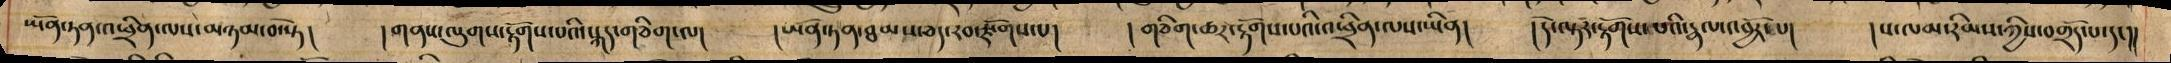ཡོན་ཏན་འཕྲིན་ལས་མཉམ་བ་སྟེ། །གནས་ལུགས་རྟོགས་པའི་སྐད་གཅིག་ལ། །ཡོན་ཏན་ཐམས་ཅད་རབ་སྫོགས་པ། །གཅིག་ཆར་རྟོགས་པའི་འཕྲིན་ལས་ཡིན། །དེ་ལྟར་རྟོགས་པའི་རྣལ་འབྱོར་པ། །ས་ལམ་རིམས་ཀྱིས་བགྲོད་པ་དང།།
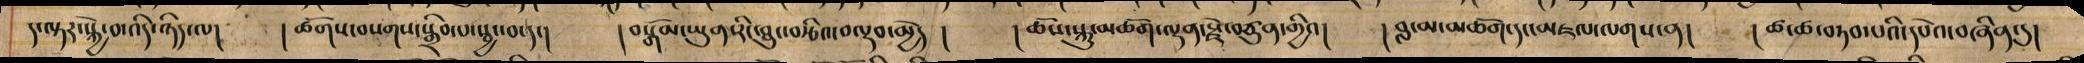ད་ལྟར་སྐྱེ་བ་འདི་ཉིད་ལ། །ཚོགས་བསགས་སྒྲིབ་པ་སྦྱང་བ་དང། །བསྒོམ་ཡུན་རིང་ཐུང་བརྩིའ་བལྡབ་མྱེ ། །ཆོས་སྐུ་མཆོག་ལྡན་རྗེ་བཙུན་གྱིའ། །བླ་མ་མཆོག་དང་མཇལ་ལགས་ན། །ཚ་ཚ་བཏབ་པའི་དཔེའ་བཞིན་དུ།
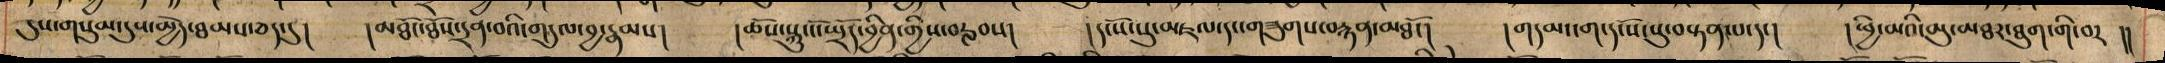དུས་གསུམ་དུས་མྱེད་ཐམས་ཅད་དུ། །མཐོང་ཐོས་དྲན་བའི་གདུལ་བྱ་རྣམས། །ཆོས་སྐུ་ངོ་སྤྲོད་བྱིན་གྱིས་བརླབས། །དངོས་སུ་མཇལ་དག་གཟུགས་བརྙན་མཐོང། །གདམ་ངག་དངོས་སུ་བསྟན་པ་དང། །ཕྱི་མའི་མུ་མཐར་ཐུག་གི་བར །།
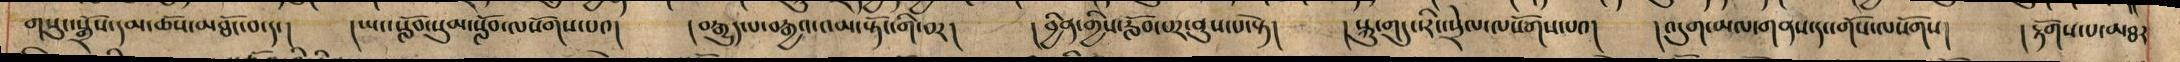གསུང་སྒྲོས་དམ་ཆོས་མཐོང་བ་དང། །ཡང་སློབ་སུམ་སློབ་ལསོགས་པའ། །བརྒྱུད་པ་བརྒྱའ་འམ་སྟོང་གི་བར། །བྱིན་གྱིས་རློབ་པར་ནུས་པ་སྟེ། །སྐུ་གདུང་རིང་སྲེལ་ལསོགས་པའ། །འདུག་མལ་གནས་དང་གོས་ལསོགས། །རྟོགས་པ་མཐར
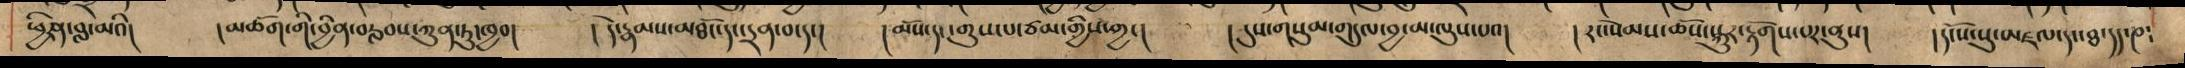ཕྱིན་བླ་མའི། །མཆོག་གི་བྱིན་བརླབས་ཀུན་ཏུ་ཁྱབ། ། དེ་རྣམས་མཐོང་དང་དྲན་བ་དང། །མོས་དང་གུས་པ་ཙམ་གྱིས་ཀྱང། ། དུས་གསུམ་གདུལ་བྱ་མ་ལུས་པའ། །རང་སེམས་ཆོས་སྐུར་རྟོགས་པར་ནུས། །དངོས་སུ་མཇལ་དང་ཐ་དད་ཎ༴
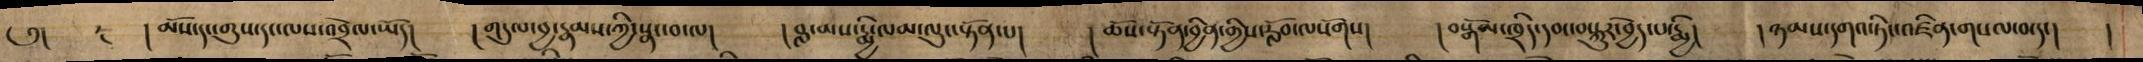༅། །མོས་དང་གུས་དང་ལས་འབྲེལ་ཡོད། །གདུལ་བྱ་རྣམས་ཀྱི་སྣང་བ་ལ། །བླ་མས་རྨྱི་ལམ་ལུང་སྟོན་པ། །ཆོས་སྟོན་བྱིན་གྱིས་རློབ་ལསོགས། །བསྒོམ་ཁྲིད་དབང་བསྐུར་བྱེད་པ་རྨྱི། །ཉམས་དགའ་ཏིང་འཛིན་གསལ་བ་དང། །
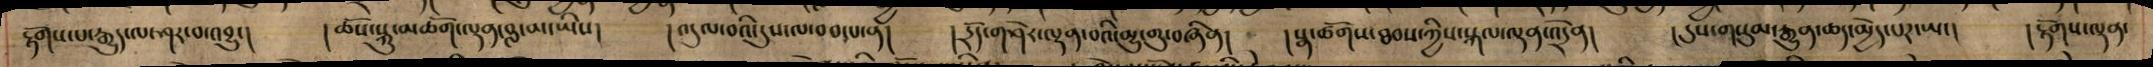རྟོགས་པ་རྒྱུད་ལ་ཤར་བ་འབྱུང། །ཆོས་སྐུ་མཆོག་ལྡན་བླ་མ་ཡིས། །འདུལ་བའི་དུས་ལ་བབ་པ་ན། །དྲོད་གཤེར་ལྡན་པའི་མྱུ་གུ་བཞིན། །སྣ་ཚོགས་ཐབས་ཀྱིས་སྐལ་ལྡན་འདྲེན། །དུས་གསུམ་རྒྱུན་ཆད་མྱེད་པར་ཡང། །རྟོགས་ལྡན་
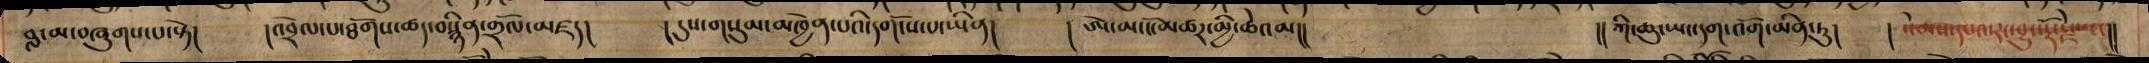བླ་མ་བཞུགས་པ་སྟེ། །འབྲེལ་པ་ཐོགས་ཚད་བསྙིན་གྲོལ་མཛད། །དུས་གསུམ་མཁྱེན་པའི་དགོངས་པ་ཡིན། ། ཨེ་མ་ངོ་མཚར་མྱི་ཆེའམ།། །།ཀི་ཆུ་ཡང་དག་འོག་མིན་ཏུ། །སེམས་དཔའ་རང་བྱུང་རྡོ་རྗེ་ཡང།།
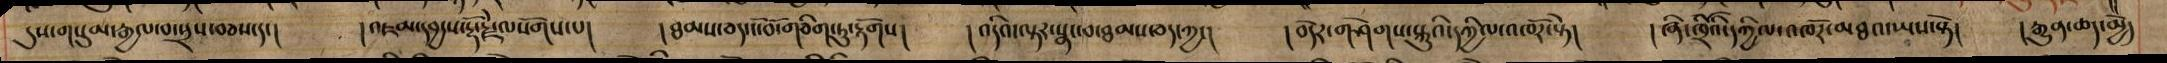དུས་གསུམ་རྒྱལ་བ་སྲས་བཅས་དང། །འཇམ་དབྱངས་རྡོ་རྗེ་ལསོགས་པ། །ཐམས་ཅད་ངོ་བོ་གཅིག་ཏུ་རྟོགས། །འདིའ་ལྟར་སྣང་བ་ཐམས་ཅད་ཀྱང། །བདེར་གཤེགས་སྐུའི་དཀྱིལ་འཁོར་སྟེ། །ཞི་ཁྲོའི་དཀྱིལ་འཁོར་མཐའ་ཡས་སྟེ། །རྒྱུན་ཆད་མྱེད
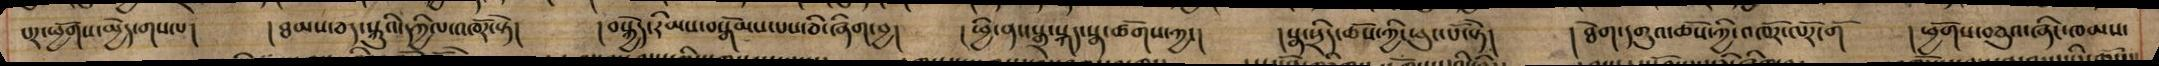པར་ཕྱོགས་མྱེད་གསལ། །ཐམས་ཅད་སྐུའི་དཀྱིལ་འཁོར་སྟེ། །བསྐྱེད་རིམས་བསྒོམས་པས་ཅི་ཞིག་བྱ། །ཕྱི་ནང་སྒྲ་སྐད་སྣ་ཚོགས་ཀྱང། །སྣང་སྲིད་ཆོས་ཀྱི་ཕུང་པོ་སྟེ། །ཐེག་དགུའ་ཆོས་ཀྱི་འཁོར་ལོར་གོ །ཕྱོགས་བཅུའ་ཞིང་ཁམས་
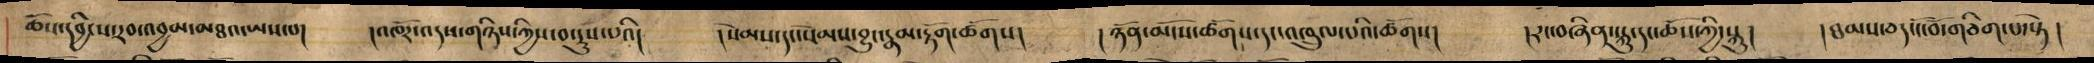ཆོས་དབྱིངས་རབ་འབྱམ་མཐའ་ཡས་པ། །འཁོར་འདས་གཉིས་ཀྱིས་བསྡུས་པའི། །སེམས་དང་སེམས་བྱུང་རྣམ་རྟོག་ཚོགས། །ཉོན་མོངས་ཚོགས་དང་འཁྲུལ་པའི་ཚོགས། །རང་བཞིན་སྐུ་དང་ཆོས་ཀྱི་སྐུ། །ཐམས་ཅད་ངོ་བོ་གཅིག་པ་སྟེ།
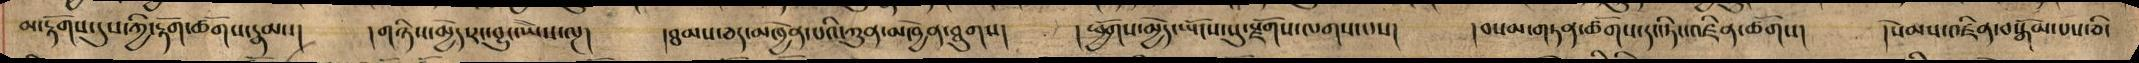མ་རྟོགས་དུས་ཀྱི་རྟོགས་ཚོགས་རྣམས། །གཉིས་མྱེད་རང་བྱུང་ཡཻས་ལྔ། །ཐམས་ཅད་མཁྱེན་པའི་ཀུན་མཁྱེན་ཐུགས། །ཕྱོགས་མྱེད་ཡོངས་སུ་སྫོགས་ལགས་པས། །བསམ་གཏན་ཚོགས་དང་ཏིང་འཛིན་ཚོགས། །སེམས་འཛིན་བསྒོམ་པས་ཅི་
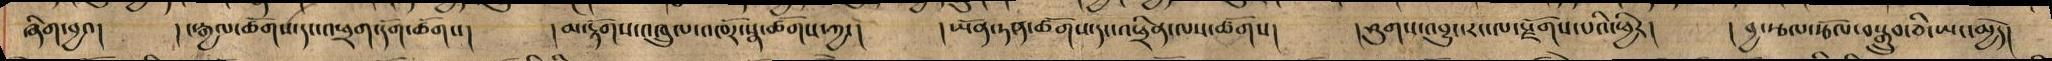ཞིག་བྱའ། །ང་རྒྱལ་ཚོགས་དང་འཕྲག་དོག་ཚོགས། །མ་རྟོགས་འཁྲུལ་འཁོར་སྣ་ཚོགས་ཀྱང། །ཡོན་ཏན་ཚོགས་དང་འཕྲིན་ལས་ཚོགས། །ཤུགས་འབྱུང་རང་ལ་སྫོགས་པའི་ཕྱིར། །བྱ་རྩལ་རྩོལ་བསྒྲུབ་ཅི་ཡང་མྱེད།
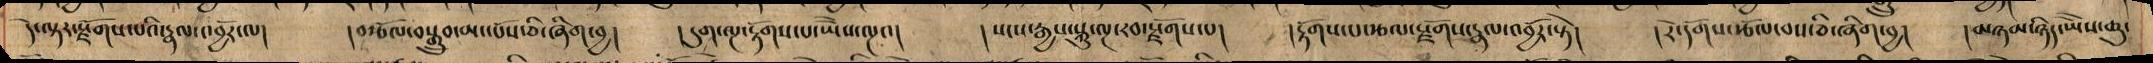དེ་ལྟར་སྫོགས་པའི་རྣལ་འབྱོར་ལ། །བརྩོལ་བསྒྲུབ་མང་པོས་ཅི་ཞིག་བྱ། །དུག་ལྔ་རྟོགས་པ་ཡཻས་ལྔའ། །སངས་རྒྱས་སྐུ་ལྔ་རབ་སྫོགས་པ། །རྟོགས་པ་རྩལ་སྫོགས་རྣལ་འབྱོར་སྟེ། །རེ་དོགས་རྩོལ་བས་ཅི་ཞིག་བྱ། །མཉམ་ཉིད་ཡཻས་ཆུ་
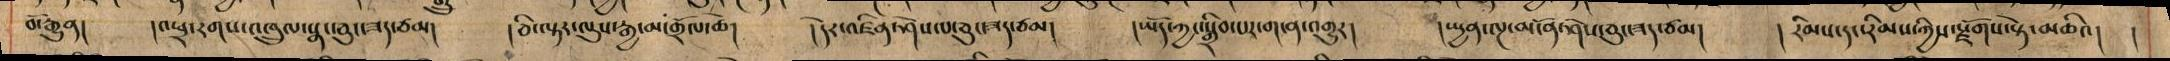བོ་རྒྱུན། །འཕྲ་རགས་འཁྲུལ་སྣང་ཅུང་ཟད་ཙམ། །ཅི་ལྟར་ལུས་རྒྱ་མ་གྲོལ་ཚེ། །དེར་འཛིན་ཤེས་པ་ཅུང་ཟད་ཙམ། །ཡོད་ཀྱང་སྒྲིབ་པར་ག་ན་འགྱུར། །སྤྱན་ལྔ་མངོན་ཤེས་ཅུང་ཟད་ཙམ། །རིམས་དང་རིམས་ཀྱིས་སྫོགས་སྟེ་མཆིའ། །
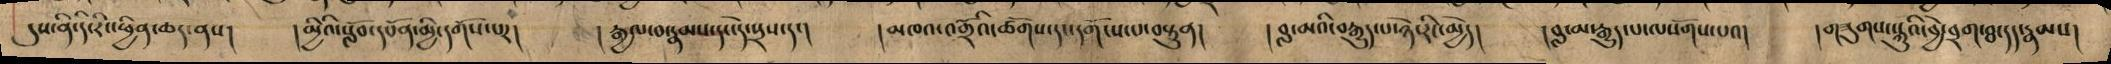དུས་ནི་དེ་རིང་ཕྱིན་ཆད་ནས། །མྱིའི་སློབ་དཔོན་མྱི་དགོས་པར། །རྒྱལ་བ་རྣམས་དང་དེ་སྲས་དང། །མཁའ་འགྲོའི་ཚོགས་དང་དགོངས་པ་བསྟུན། །བླ་མའི་བརྒྱུད་པ་ཉེ་རིང་མྱེད། །བླ་མ་རྒྱུད་པ་ལསོགས་པའ། །གཟུགས་སྐུའི་བྱེ་བྲག་ཐ་དད་རྣམས།
